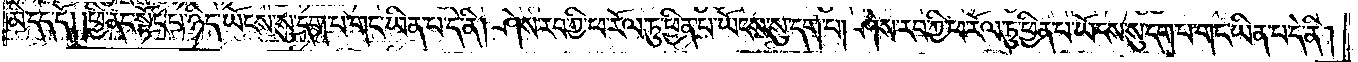མི་དད་དོ། །ཕྱི་ནང་སྟོང་པ་ཉིད་ཡོངས་སུ་དག་པ་གང་ཡིན་པ་དེ་ནི། ཤེས་རབ་ཀྱི་ཕ་རོལ་ཏུ་ཕྱིན་པ་ཡོངས་སུ་དག་པ། ཤེས་རབ་ཀྱི་ཕ་རོལ་ཏུ་ཕྱིན་པ་ཡོངས་སུ་དག་པ་གང་ཡིན་པ་དེ་ནི།
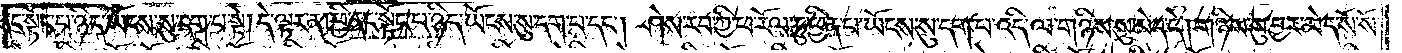ནང་སྟོང་པ་ཉིད་ཡོངས་སུ་དག་པ་སྟེ། དེ་ལྟར་ན། ཕྱི་ནང་སྟོང་པ་ཉིད་ཡོངས་སུ་དག་པ་དང༌། ཤེས་རབ་ཀྱི་ཕ་རོལ་ཏུ་ཕྱིན་པ་ཡོངས་སུ་དག་པ་འདི་ལ་གཉིས་སུ་མེད་དེ། གཉིས་སུ་བྱར་མེད་སོ་སོ་
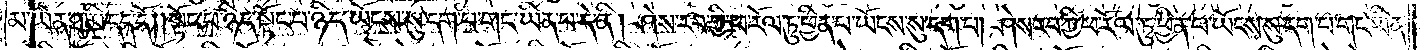མ་ཡིན་ཐ་མི་དད་དོ། །སྟོང་པ་ཉིད་སྟོང་པ་ཉིད་ཡོངས་སུ་དག་པ་གང་ཡིན་པ་དེ་ནི། ཤེས་རབ་ཀྱི་ཕ་རོལ་ཏུ་ཕྱིན་པ་ཡོངས་སུ་དག་པ། ཤེས་རབ་ཀྱི་ཕ་རོལ་ཏུ་ཕྱིན་པ་ཡོངས་སུ་དག་པ་གང་ཡིན་
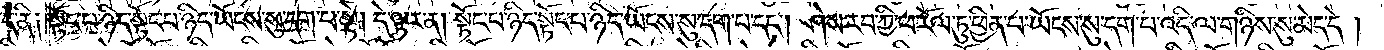དེ་ནི༑ སྟོང་པ་ཉིད་སྟོང་པ་ཉིད་ཡོངས་སུ་དག་པ་སྟེ། དེ་ལྟར་ན། སྟོང་པ་ཉིད་སྟོང་པ་ཉིད་ཡོངས་སུ་དག་པ་དང༌། ཤེས་རབ་ཀྱི་ཕ་རོལ་ཏུ་ཕྱིན་པ་ཡོངས་སུ་དག་པ་འདི་ལ་གཉིས་སུ་མེད་དེ།
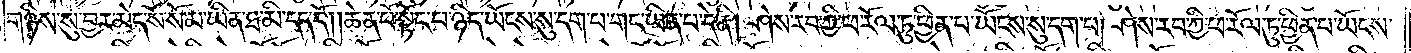གཉིས་སུ་བྱར་མེད་སོ་སོ་མ་ཡིན་ཐ་མི་དད་དོ། །ཆེན་པོ་སྟོང་པ་ཉིད་ཡོངས་སུ་དག་པ་གང་ཡིན་པ་དེ་ནི། ཤེས་རབ་ཀྱི་ཕ་རོལ་ཏུ་ཕྱིན་པ་ཡོངས་སུ་དག་པ། ཤེས་རབ་ཀྱི་ཕ་རོལ་ཏུ་ཕྱིན་པ་ཡོངས་
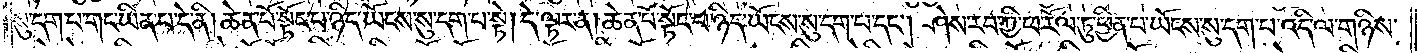སུ་དག་པ་གང་ཡིན་པ་དེ་ནི། ཆེན་པོ་སྟོང་པ་ཉིད་ཡོངས་སུ་དག་པ་སྟེ། དེ་ལྟར་ན། ཆེན་པོ་སྟོང་པ་ཉིད་ཡོངས་སུ་དག་པ་དང༌། ཤེས་རབ་ཀྱི་ཕ་རོལ་ཏུ་ཕྱིན་པ་ཡོངས་སུ་དག་པ་འདི་ལ་གཉིས་
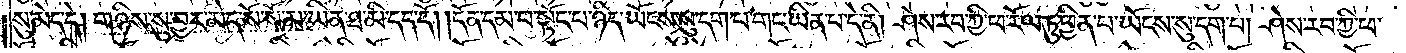སུ་མེད་དེ། གཉིས་སུ་བྱར་མེད་སོ་སོ་མ་ཡིན་ཐ་མི་དད་དོ། །དོན་དམ་པ་སྟོང་པ་ཉིད་ཡོངས་སུ་དག་པ་གང་ཡིན་པ་དེ་ནི། ཤེས་རབ་ཀྱི་ཕ་རོལ་ཏུ་ཕྱིན་པ་ཡོངས་སུ་དག་པ། ཤེས་རབ་ཀྱི་ཕ་
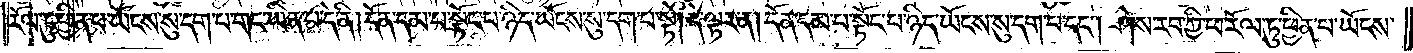རོལ་ཏུ་ཕྱིན་པ་ཡོངས་སུ་དག་པ་གང་ཡིན་པ་དེ་ནི། དོན་དམ་པ་སྟོང་པ་ཉིད་ཡོངས་སུ་དག་པ་སྟེ། དེ་ལྟར་ན། དོན་དམ་པ་སྟོང་པ་ཉིད་ཡོངས་སུ་དག་པ་དང༌། ཤེས་རབ་ཀྱི་ཕ་རོལ་ཏུ་ཕྱིན་པ་ཡོངས་
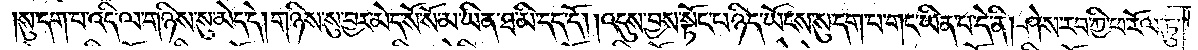སུ་དག་པ་འདི་ལ་གཉིས་སུ་མེད་དེ། གཉིས་སུ་བྱར་མེད་སོ་སོ་མ་ཡིན་ཐ་མི་དད་དོ། །འདུས་བྱས་སྟོང་པ་ཉིད་ཡོངས་སུ་དག་པ་གང་ཡིན་པ་དེ་ནི། ཤེས་རབ་ཀྱི་ཕ་རོལ་ཏུ་
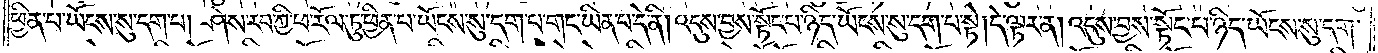ཕྱིན་པ་ཡོངས་སུ་དག་པ། ཤེས་རབ་ཀྱི་ཕ་རོལ་ཏུ་ཕྱིན་པ་ཡོངས་སུ་དག་པ་གང་ཡིན་པ་དེ་ནི། འདུས་བྱས་སྟོང་པ་ཉིད་ཡོངས་སུ་དག་པ་སྟེ། དེ་ལྟར་ན། འདུས་བྱས་སྟོང་པ་ཉིད་ཡོངས་སུ་དག་
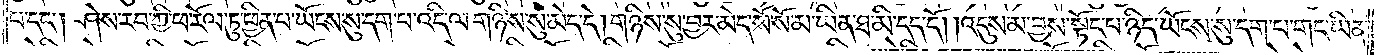པ་དང༌། ཤེས་རབ་ཀྱི་ཕ་རོལ་ཏུ་ཕྱིན་པ་ཡོངས་སུ་དག་པ་འདི་ལ་གཉིས་སུ་མེད་དེ། གཉིས་སུ་བྱར་མེད་སོ་སོ་མ་ཡིན་ཐ་མི་དད་དོ། །འདུས་མ་བྱས་སྟོང་པ་ཉིད་ཡོངས་སུ་དག་པ་གང་ཡིན་
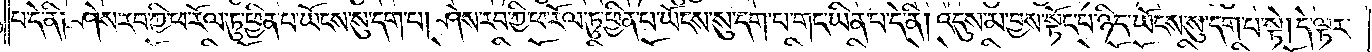པ་དེ་ནི༑ ཤེས་རབ་ཀྱི་ཕ་རོལ་ཏུ་ཕྱིན་པ་ཡོངས་སུ་དག་པ། ཤེས་རབ་ཀྱི་ཕ་རོལ་ཏུ་ཕྱིན་པ་ཡོངས་སུ་དག་པ་གང་ཡིན་པ་དེ་ནི། འདུས་མ་བྱས་སྟོང་པ་ཉིད་ཡོངས་སུ་དག་པ་སྟེ། དེ་ལྟར་
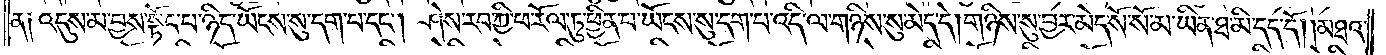ན༑ འདུས་མ་བྱས་སྟོང་པ་ཉིད་ཡོངས་སུ་དག་པ་དང༌། ཤེས་རབ་ཀྱི་ཕ་རོལ་ཏུ་ཕྱིན་པ་ཡོངས་སུ་དག་པ་འདི་ལ་གཉིས་སུ་མེད་དེ། གཉིས་སུ་བྱར་མེད་སོ་སོ་མ་ཡིན་ཐ་མི་དད་དོ། །མཐའ་
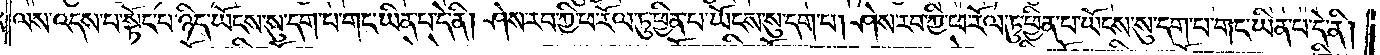ལས་འདས་པ་སྟོང་པ་ཉིད་ཡོངས་སུ་དག་པ་གང་ཡིན་པ་དེ་ནི། ཤེས་རབ་ཀྱི་ཕ་རོལ་ཏུ་ཕྱིན་པ་ཡོངས་སུ་དག་པ། ཤེས་རབ་ཀྱི་ཕ་རོལ་ཏུ་ཕྱིན་པ་ཡོངས་སུ་དག་པ་གང་ཡིན་པ་དེ་ནི།
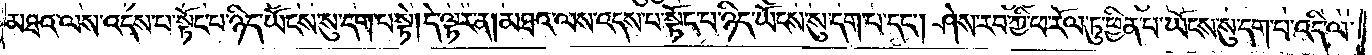མཐའ་ལས་འདས་པ་སྟོང་པ་ཉིད་ཡོངས་སུ་དག་པ་སྟེ། དེ་ལྟར་ན། མཐའ་ལས་འདས་པ་སྟོང་པ་ཉིད་ཡོངས་སུ་དག་པ་དང༌། ཤེས་རབ་ཀྱི་ཕ་རོལ་ཏུ་ཕྱིན་པ་ཡོངས་སུ་དག་པ་འདི་ལ་
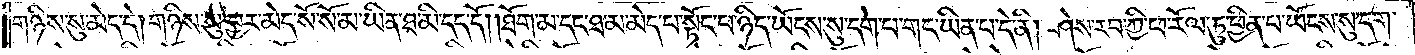གཉིས་སུ་མེད་དེ། གཉིས་སུ་བྱར་མེད་སོ་སོ་མ་ཡིན་ཐ་མི་དད་དོ། །ཐོག་མ་དང་ཐ་མ་མེད་པ་སྟོང་པ་ཉིད་ཡོངས་སུ་དག་པ་གང་ཡིན་པ་དེ་ནི། ཤེས་རབ་ཀྱི་ཕ་རོལ་ཏུ་ཕྱིན་པ་ཡོངས་སུ་དག་
